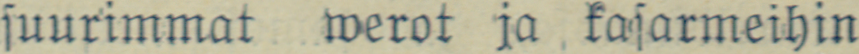suurimmat werot ja kasarmeihin
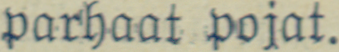parhaat pojat.
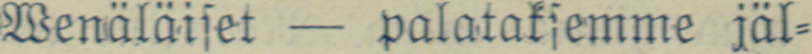Wenäläiset — palataksemme jäl-
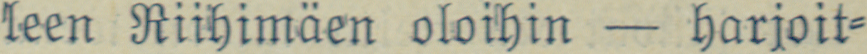leen Riihimäen oloihin — harjoit-
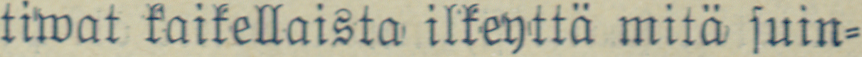tiwat kaikellaista ilkeyttä mitä suin-
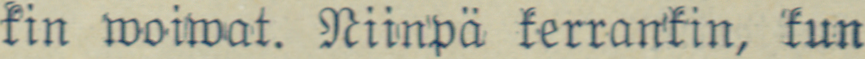kin woiwat. Niinpä kerrankin, kun
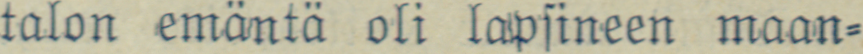talon emäntä oli lapsineen maan-
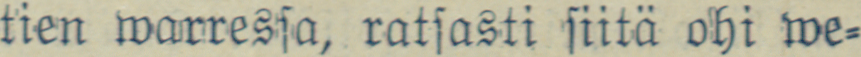tien warressa, ratsasti siitä ohi we-
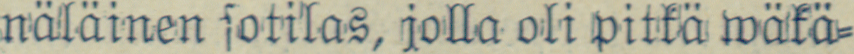näläinen sotilas, jolla oli pitkä wäkä-
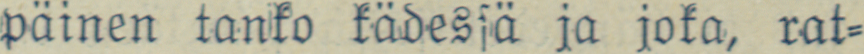päinen tanko kädessä ja joka, rat-
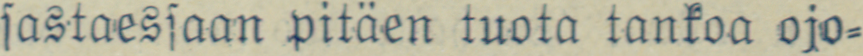sastaessaan pitäen tuota tankoa oja-
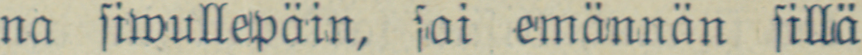na siwullepäin, sai emännän sillä
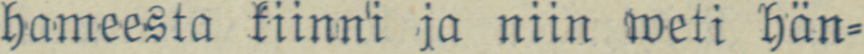hameesta kiinni ja niin weti hän-
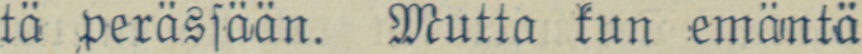tä perässään. Mutta kun emäntä
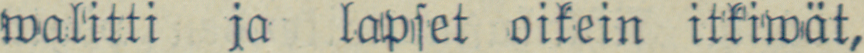walitti ja lapset oikein itkiwät,
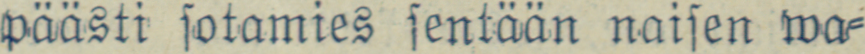päästi sotamies sentään naisen wa-
